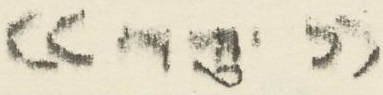(( དགུ་ ))
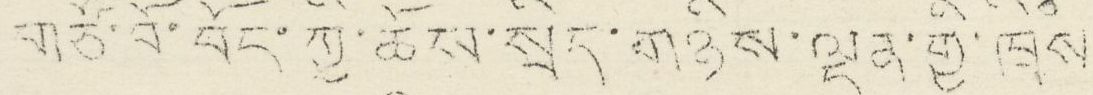གཙོ་བོ་བོད་ཀྱི་ཆོས་སྲིད་གཉིས་ལྡན་གྱི་ཁྲིཾས
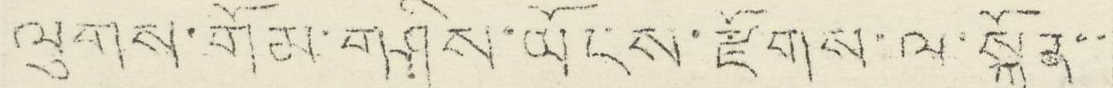ལུགས་གོམ་གཤིས་ཡོངས་རྫོགས་ལ་སྐྱོན་་
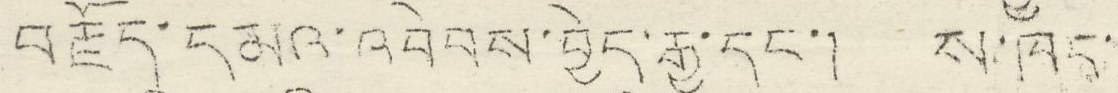བརྗོད་དམའ་འབེབས་བྱེད་རྒྱ་དང་། ས་ཁང་
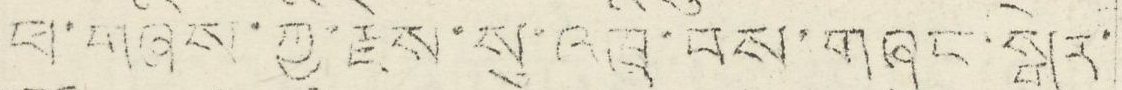ཕ་གཞིས་ཀྱི་རྗེས་སུ་འཁྲི་བས་གཞུང་སྒེར་
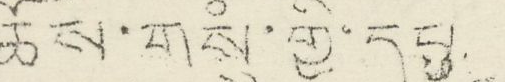ཆོས་གསུཾ་གྱི་དབུ
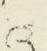འ
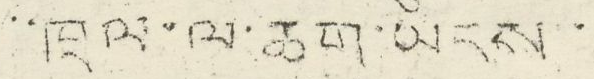་་ཁྲལ་ལ་ཆག་ཡངས་་
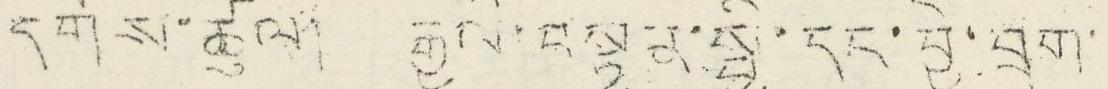དགོས་ཚུལ། རྒྱལ་བསྟན་སྤྱི་དང་བྱེ་བྲག་
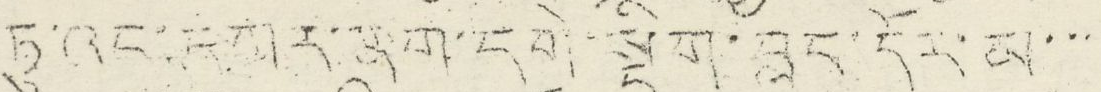ཏུ་འང་དགར་ནག་དགེ་སྡིག་བླང་དོར་མ་་་
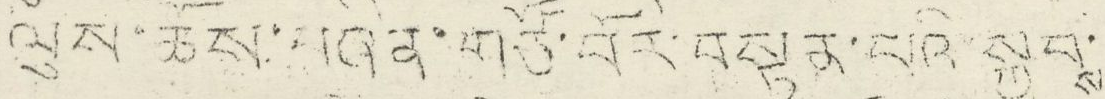ལུས་ཆོས་བཞིན་གཙོ་བོར་བསྟན་པའི་སྐྱབས་
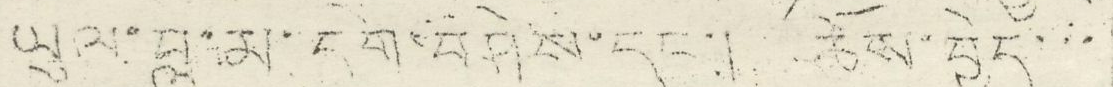ཡུལ་བླ་མ་དགེ་བཤེས་དང་། ཆོས་བྱེད་་་
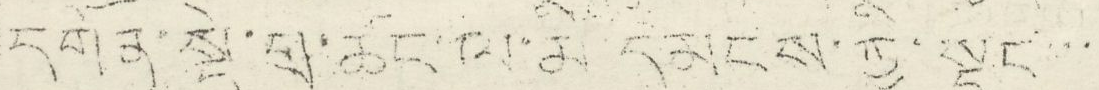དགོན་སྡེ་གྲ་ཚང་ལ་མི་དམངས་ཀྱི་སྡང་་་
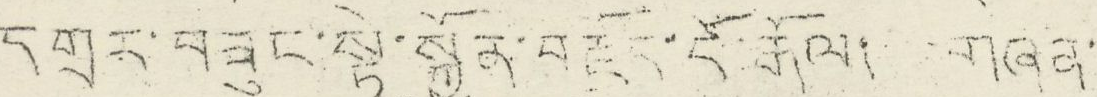དགྲར་བཟུང་སྟེ་སྐྱོན་བརྗོད་ངོ་རྒོལ། གཞན་
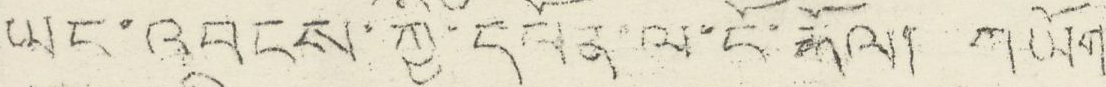ཡང་འབངས་ཀྱི་དཔོན་ལ་ངོ་རྒོལ། གཡོག
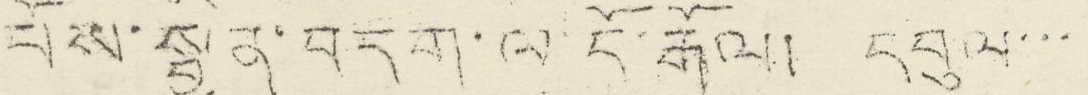པོས་སྦྱིན་བདག་ལ་ངོ་རྒོལ། དབུལ་་་
